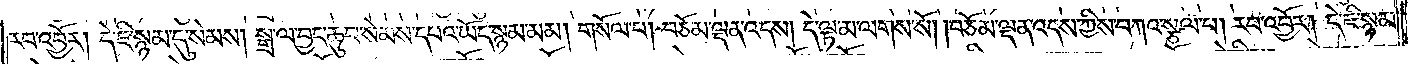རབ་འབྱོར། དེ་ཇི་སྙམ་དུ་སེམས། སྒྲ་ལ་བྱང་ཆུབ་སེམས་དཔའ་ཡོད་སྙམ་མམ། གསོལ་པ། བཅོམ་ལྡན་འདས། དེ་ལྟ་མ་ལགས་སོ། །བཅོམ་ལྡན་འདས་ཀྱིས་བཀའ་སྩལ་པ། རབ་འབྱོར། དེ་ཇི་སྙམ་
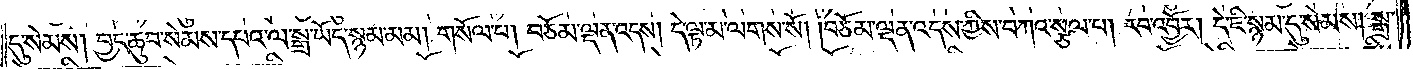དུ་སེམས། བྱང་ཆུབ་སེམས་དཔའ་ལ་སྒྲ་ཡོད་སྙམ་མམ། གསོལ་པ། བཅོམ་ལྡན་འདས། དེ་ལྟ་མ་ལགས་སོ། །བཅོམ་ལྡན་འདས་ཀྱིས་བཀའ་སྩལ་པ། རབ་འབྱོར། དེ་ཇི་སྙམ་དུ་སེམས། སྒྲ་
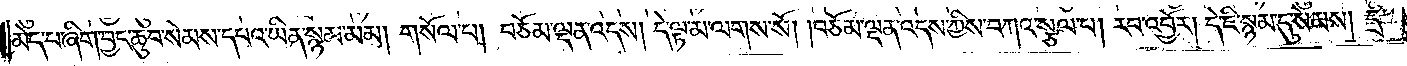མེད་པ་ཞེས་བྱང་ཆུབ་སེམས་དཔའ་ཡིན་སྙམ་མམ། གསོལ་པ། བཅོམ་ལྡན་འདས། དེ་ལྟ་མ་ལགས་སོ། །བཅོམ་ལྡན་འདས་ཀྱིས་བཀའ་སྩལ་པ། རབ་འབྱོར། དེ་ཇི་སྙམ་དུ་སེམས། དྲི་
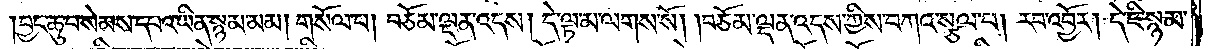བྱང་ཆུབ་སེམས་དཔའ་ཡིན་སྙམ་མམ། གསོལ་པ། བཅོམ་ལྡན་འདས། དེ་ལྟ་མ་ལགས་སོ། །བཅོམ་ལྡན་འདས་ཀྱིས་བཀའ་སྩལ་པ། རབ་འབྱོར། དེ་ཇི་སྙམ་
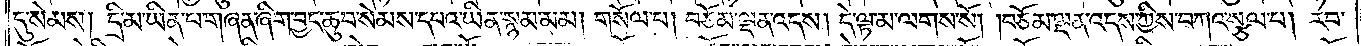དུ་སེམས། དྲི་མ་ཡིན་པ་གཞན་ཞིག་བྱང་ཆུབ་སེམས་དཔའ་ཡིན་སྙམ་མམ། གསོལ་པ། བཅོམ་ལྡན་འདས། དེ་ལྟ་མ་ལགས་སོ། །བཅོམ་ལྡན་འདས་ཀྱིས་བཀའ་སྩལ་པ། རབ་
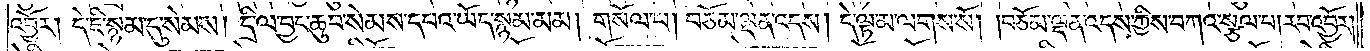འབྱོར། དེ་ཇི་སྙམ་དུ་སེམས། དྲི་ལ་བྱང་ཆུབ་སེམས་དཔའ་ཡོད་སྙམ་མམ། གསོལ་པ། བཅོམ་ལྡན་འདས། དེ་ལྟ་མ་ལགས་སོ། །བཅོམ་ལྡན་འདས་ཀྱིས་བཀའ་སྩལ་པ། རབ་འབྱོར།
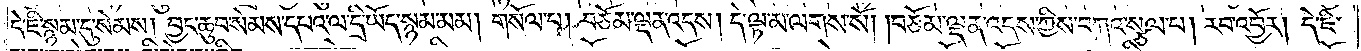དེ་ཇི་སྙམ་དུ་སེམས། བྱང་ཆུབ་སེམས་དཔའ་ལ་དྲི་ཡོད་སྙམ་མམ། གསོལ་པ། བཅོམ་ལྡན་འདས། དེ་ལྟ་མ་ལགས་སོ། །བཅོམ་ལྡན་འདས་ཀྱིས་བཀའ་སྩལ་པ། རབ་འབྱོར། དེ་ཇི་
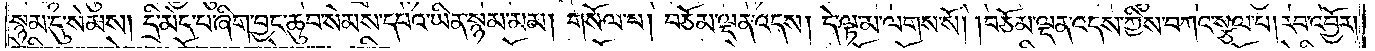སྙམ་དུ་སེམས། དྲི་མེད་པ་ཞིག་བྱང་ཆུབ་སེམས་དཔའ་ཡིན་སྙམ་མམ། གསོལ་པ། བཅོམ་ལྡན་འདས། དེ་ལྟ་མ་ལགས་སོ། །བཅོམ་ལྡན་འདས་ཀྱིས་བཀའ་སྩལ་པ། རབ་འབྱོར།
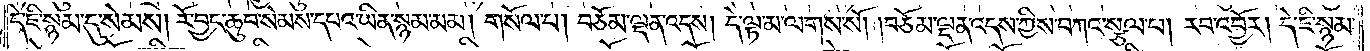དེ་ཇི་སྙམ་དུ་སེམས། རོ་བྱང་ཆུབ་སེམས་དཔའ་ཡིན་སྙམ་མམ། གསོལ་པ། བཅོམ་ལྡན་འདས། དེ་ལྟ་མ་ལགས་སོ། །བཅོམ་ལྡན་འདས་ཀྱིས་བཀའ་སྩལ་པ། རབ་འབྱོར། དེ་ཇི་སྙམ་
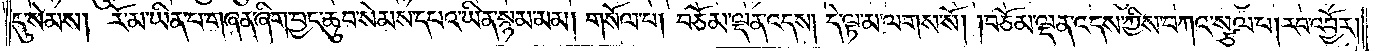དུ་སེམས། རོ་མ་ཡིན་པ་གཞན་ཞིག་བྱང་ཆུབ་སེམས་དཔའ་ཡིན་སྙམ་མམ། གསོལ་པ། བཅོམ་ལྡན་འདས། དེ་ལྟ་མ་ལགས་སོ། །བཅོམ་ལྡན་འདས་ཀྱིས་བཀའ་སྩལ་པ། རབ་འབྱོར།
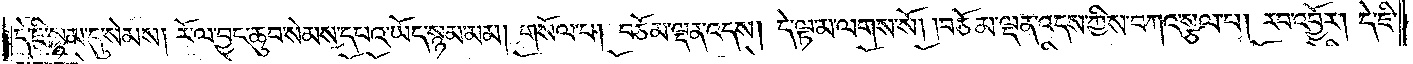དེ་ཇི་སྙམ་དུ་སེམས། རོ་ལ་བྱང་ཆུབ་སེམས་དཔའ་ཡོད་སྙམ་མམ། གསོལ་པ། བཅོམ་ལྡན་འདས། དེ་ལྟ་མ་ལགས་སོ། །བཅོམ་ལྡན་འདས་ཀྱིས་བཀའ་སྩལ་པ། རབ་འབྱོར། དེ་ཇི་
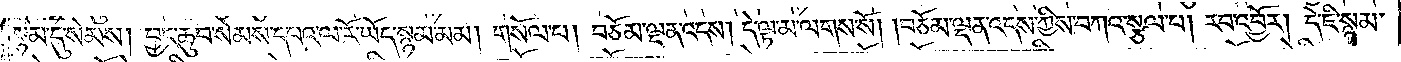སྙམ་དུ་སེམས། བྱང་ཆུབ་སེམས་དཔའ་ལ་རོ་ཡོད་སྙམ་མམ། གསོལ་པ། བཅོམ་ལྡན་འདས། དེ་ལྟ་མ་ལགས་སོ། །བཅོམ་ལྡན་འདས་ཀྱིས་བཀའ་སྩལ་པ། རབ་འབྱོར། དེ་ཇི་སྙམ་
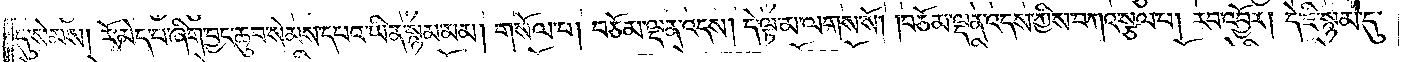དུ་སེམས། རོ་མེད་པ་ཞིག་བྱང་ཆུབ་སེམས་དཔའ་ཡིན་སྙམ་མམ། གསོལ་པ། བཅོམ་ལྡན་འདས། དེ་ལྟ་མ་ལགས་སོ། །བཅོམ་ལྡན་འདས་ཀྱིས་བཀའ་སྩལ་པ། རབ་འབྱོར། དེ་ཇི་སྙམ་དུ་
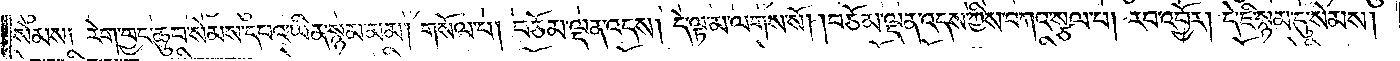སེམས༑ རེག་བྱང་ཆུབ་སེམས་དཔའ་ཡིན་སྙམ་མམ། གསོལ་པ། བཅོམ་ལྡན་འདས། དེ་ལྟ་མ་ལགས་སོ། །བཅོམ་ལྡན་འདས་ཀྱིས་བཀའ་སྩལ་པ། རབ་འབྱོར། དེ་ཇི་སྙམ་དུ་སེམས།
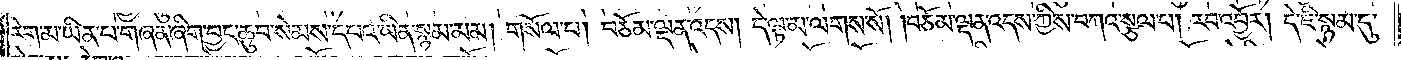རེག་མ་ཡིན་པ་གཞན་ཞིག་བྱང་ཆུབ་སེམས་དཔའ་ཡིན་སྙམ་མམ། གསོལ་པ། བཅོམ་ལྡན་འདས། དེ་ལྟ་མ་ལགས་སོ། །བཅོམ་ལྡན་འདས་ཀྱིས་བཀའ་སྩལ་པ། རབ་འབྱོར། དེ་ཇི་སྙམ་དུ་
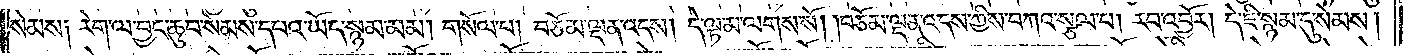སེམས། རེག་ལ་བྱང་ཆུབ་སེམས་དཔའ་ཡོད་སྙམ་མམ། གསོལ་པ། བཅོམ་ལྡན་འདས། དེ་ལྟ་མ་ལགས་སོ། །བཅོམ་ལྡན་འདས་ཀྱིས་བཀའ་སྩལ་པ། རབ་འབྱོར། དེ་ཇི་སྙམ་དུ་སེམས།
